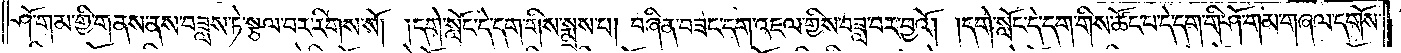ཤོ་གམ་གྱི་གནས་ནས་བཟླས་ཏེ་སྩལ་བར་རིགས་སོ། །དགེ་སློང་དེ་དག་གིས་སྨྲས་པ། བཞིན་བཟང་དག་འཇལ་གྱིས་བཟླ་བར་བྱའོ། །དགེ་སློང་དེ་དག་གིས་ཚོང་པ་དེ་དག་གི་ཤོ་གམ་གཞལ་དགོས་
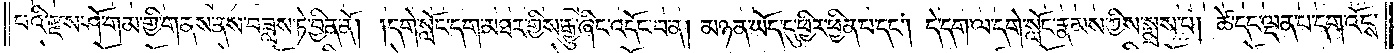པའི་རྫས་ཤོ་གམ་གྱི་གནས་ནས་བཟླས་ཏེ་བྱིན་ནོ། །དགེ་སློང་དག་མཐར་གྱིས་རྒྱུ་ཞིང་འདོང་བ་ན། མཉན་ཡོད་དུ་ཕྱིར་ཕྱིན་པ་དང༌། དེ་དག་ལ་དགེ་སློང་རྣམས་ཀྱིས་སྨྲས་པ། ཚེ་དང་ལྡན་པ་དག་འོངས་
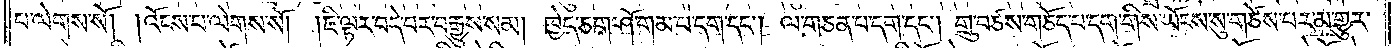པ་ལེགས་སོ། །འོངས་པ་ལེགས་སོ། །ཇི་ལྟར་བདེ་བར་བརྒྱུས་སམ། ཁྱེད་ཅག་ཤོ་གམ་པ་དག་དང༌། ལ་གཅན་པ་དག་དང༌། གྲུ་བཙས་གཅོད་པ་དག་གིས་ཡོངས་སུ་གཙེས་པར་མ་གྱུར་
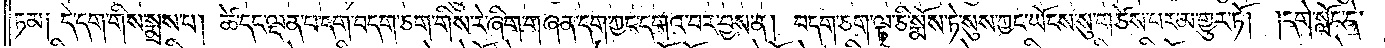ཏམ༑ དེ་དག་གིས་སྨྲས་པ། ཚེ་དང་ལྡན་པ་དག་བདག་ཅག་གིས་རེ་ཞིག་གཞན་དག་ཀྱང་དགའ་བར་བྱས་ན། བདག་ཅག་ལྟ་ཅི་སྨོས་ཏེ་སུས་ཀྱང་ཡོངས་སུ་གཙེས་པར་མ་གྱུར་ཏོ། །དགེ་སློང་དེ་
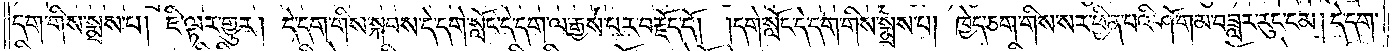དག་གིས་སྨྲས་པ། ཇི་ལྟར་གྱུར། དེ་དག་གིས་སྐབས་དེ་དགེ་སློང་དེ་དག་ལ་རྒྱས་པར་བརྗོད་དོ། །དགེ་སློང་དེ་དག་གིས་སྨྲས་པ། ཁྱེད་ཅག་གིས་སར་ཕྱིན་པའི་ཤོ་གམ་བཟླར་རུང་ངམ། དེ་དག་
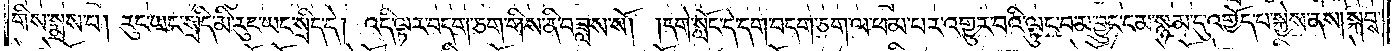གིས་སྨྲས་པ། རུང་ཡང་སྲིད་མི་རུང་ཡང་སྲིད་དེ། འདི་ལྟར་བདག་ཅག་གིས་ནི་བཟླས་སོ། །དགེ་སློང་དེ་དག་བདག་ཅག་ལ་ཕམ་པར་འགྱུར་བའི་ལྟུང་བ་མ་བྱུང་ངམ་སྙམ་དུ་འགྱོད་པ་སྐྱེས་ནས། སྐབས་
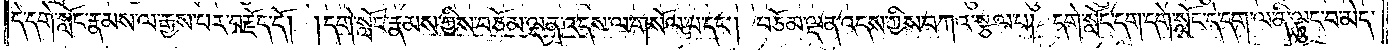དེ་དགེ་སློང་རྣམས་ལ་རྒྱས་པར་བརྗོད་དོ། །དགེ་སློང་རྣམས་ཀྱིས་བཅོམ་ལྡན་འདས་ལ་གསོལ་པ་དང༌། བཅོམ་ལྡན་འདས་ཀྱིས་བཀའ་སྩལ་པ། དགེ་སློང་དག་དགེ་སློང་དེ་དག་ལ་ནི་ལྟུང་བ་མེད་
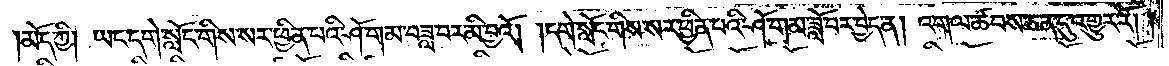།མོད་ཀྱི། ཡང་དགེ་སློང་གིས་སར་ཕྱིན་པའི་ཤོ་གམ་བཟླ་བར་མི་བྱའོ། །དགེ་སློང་གིས་སར་ཕྱིན་པའི་ཤོ་གམ་ཟློ་བར་བྱེད་ན། འགལ་ཚབས་ཅན་དུ་འགྱུར་རོ། །
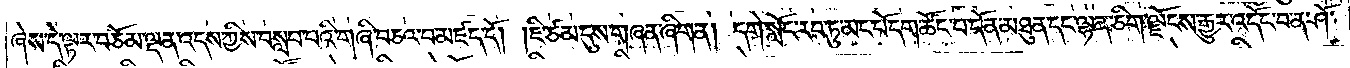ཞེས་དེ་ལྟར་བཅོམ་ལྡན་འདས་ཀྱིས་བསླབ་པའི་གཞི་བཅའ་བ་མཛད་དོ། །ཇི་ཙམ་དུས་གཞན་ཞིག་ན། དགེ་སློང་རབ་ཏུ་མང་པོ་དག་ཚོང་པ་དོན་མཐུན་དང་ལྷན་ཅིག་ལྗོངས་རྒྱུར་འདོང་བ་ན་ཤོ་
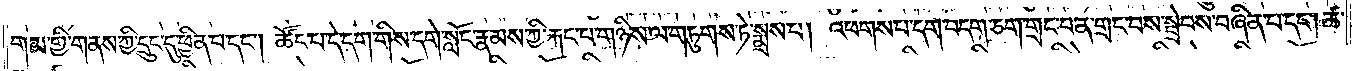གམ་གྱི་གནས་ཀྱི་དྲུང་དུ་ཕྱིན་པ་དང༌། ཚོང་པ་དེ་དག་གིས་དགེ་སློང་རྣམས་ཀྱི་རྐང་པ་གཉིས་ལ་གཏུགས་ཏེ་སྨྲས་པ། འཕགས་པ་དག་བདག་ཅག་གྲང་བ་ན་གྲང་བས་སྦྲེབས་བཞིན་པ་དང༌། ཚ་
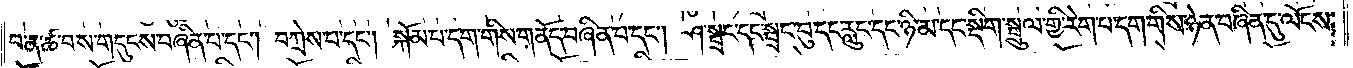བ་ན་ཚ་བས་གདུངས་བཞིན་པ་དང༌། བཀྲེས་པ་དང༌། སྐོམ་པ་དག་གིས་གནོད་བཞིན་པ་དང༌། ཤ་སྦྲང་དང་སྦྲང་བུ་དང་རླུང་དང་ཉི་མ་དང་སྡིག་སྦྲུལ་གྱི་རེག་པ་དག་གིས་ཉེན་བཞིན་དུ་ལོངས་
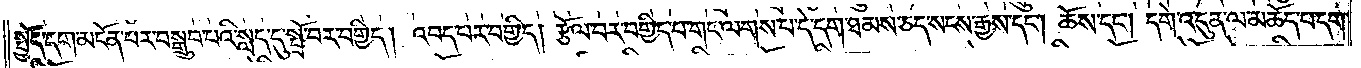སྤྱོད་དག་མངོན་པར་བསྒྲུབ་པའི་སླད་དུ་སྤྲོ་བར་བགྱིད། འབད་པར་བགྱིད། རྩོལ་བར་བགྱིད་པ་གང་ལགས་པ་དེ་དག་ཐམས་ཅད་སངས་རྒྱས་དང༌། ཆོས་དང༌། དགེ་འདུན་ལ་མཆོད་པ་དག་
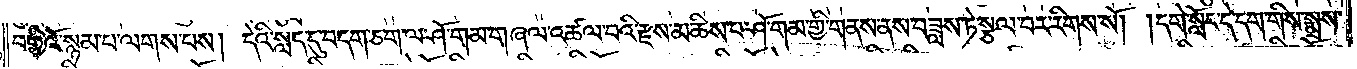བགྱིའོ་སྙམ་པ་ལགས་པས། དེའི་སླད་དུ་བདག་ཅག་ལ་ཤོ་གམ་གཞལ་འཚལ་བའི་རྫས་མཆིས་པ་ཤོ་གམ་གྱི་གནས་ནས་བཟླས་ཏེ་སྩལ་བར་རིགས་སོ། །དགེ་སློང་དེ་དག་གིས་སྨྲས་
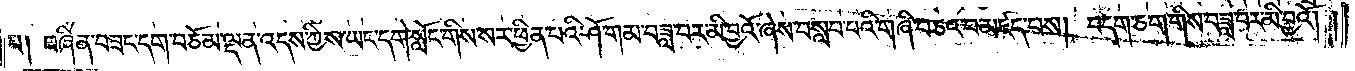པ༑ བཞིན་བཟང་དག་བཅོམ་ལྡན་འདས་ཀྱིས་ཡང་དགེ་སློང་གིས་སར་ཕྱིན་པའི་ཤོ་གམ་བཟླ་བར་མི་བྱའོ་ཞེས་བསླབ་པའི་གཞི་བཅའ་བ་མཛད་པས། བདག་ཅག་གིས་བཟླ་བར་མི་བྱའོ། །
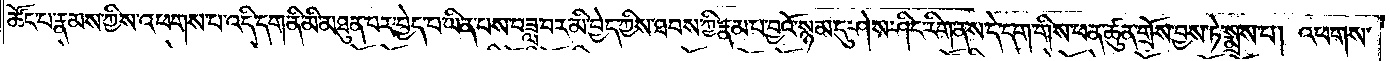ཚོང་པ་རྣམས་ཀྱིས་འཕགས་པ་འདི་དག་ནི་མི་མཐུན་པར་བྱེད་པ་ཡིན་པས་བཟླ་བར་མི་བྱེད་ཀྱིས་ཐབས་ཀྱི་རྣམ་པ་བྱའོ་སྙམ་དུ་ཤེས་ཤིང་རིག་ནས་དེ་དག་གིས་ཕན་ཚུན་གྲོས་བྱས་ཏེ་སྨྲས་པ། འཕགས་
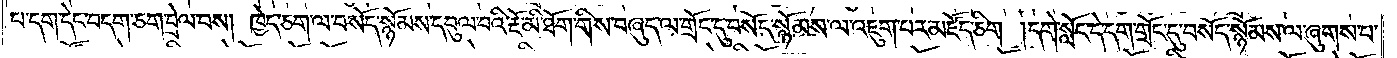པ་དག་དེང་བདག་ཅག་བྲེལ་བས། ཁྱེད་ཅག་ལ་བསོད་སྙོམས་དབུལ་བའི་རྔོ་མི་ཐོག་གིས་བཞུད་ལ་གྲོང་དུ་བསོད་སྙོམས་ལ་འཇུག་པར་མཛོད་ཅིག །དགེ་སློང་དེ་དག་གྲོང་དུ་བསོད་སྙོམས་ལ་ཞུགས་པ་
